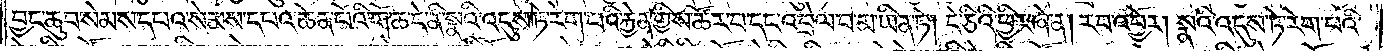བྱང་ཆུབ་སེམས་དཔའ་སེམས་དཔའ་ཆེན་པོའི་གོ་ཆ་དེ་ནི་སྣའི་འདུས་ཏེ་རེག་པའི་རྐྱེན་གྱིས་ཚོར་བ་དང་འབྲེལ་པ་མ་ཡིན་ཏེ། དེ་ཅིའི་ཕྱིར་ཞེ་ན། རབ་འབྱོར། སྣའི་འདུས་ཏེ་རེག་པའི་
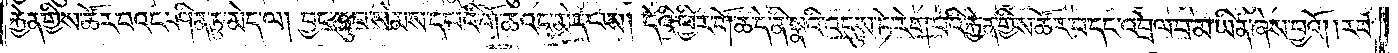རྐྱེན་གྱིས་ཚོར་བའང་ཤིན་ཏུ་མེད་ལ། བྱང་ཆུབ་སེམས་དཔའི་གོ་ཆའང་མེད་པས། དེའི་ཕྱིར་གོ་ཆ་དེ་ནི་སྣའི་འདུས་ཏེ་རེག་པའི་རྐྱེན་གྱིས་ཚོར་བ་དང་འབྲེལ་པ་མ་ཡིན་ཞེས་བྱའོ། །རབ་
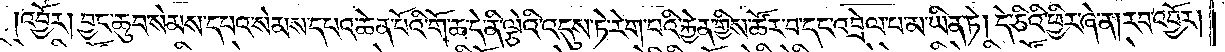འབྱོར། བྱང་ཆུབ་སེམས་དཔའ་སེམས་དཔའ་ཆེན་པོའི་གོ་ཆ་དེ་ནི་ལྕེའི་འདུས་ཏེ་རེག་པའི་རྐྱེན་གྱིས་ཚོར་བ་དང་འབྲེལ་པ་མ་ཡིན་ཏེ། དེ་ཅིའི་ཕྱིར་ཞེ་ན། རབ་འབྱོར།
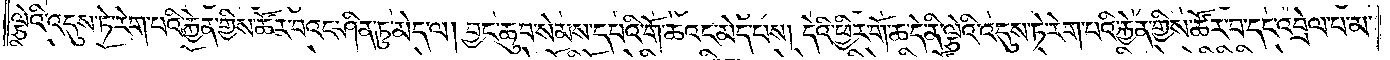ལྕེའི་འདུས་ཏེ་རེག་པའི་རྐྱེན་གྱིས་ཚོར་བའང་ཤིན་ཏུ་མེད་ལ། བྱང་ཆུབ་སེམས་དཔའི་གོ་ཆའང་མེད་པས། དེའི་ཕྱིར་གོ་ཆ་དེ་ནི་ལྕེའི་འདུས་ཏེ་རེག་པའི་རྐྱེན་གྱིས་ཚོར་བ་དང་འབྲེལ་པ་མ་
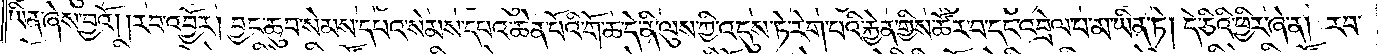ཡིན་ཞེས་བྱའོ། །རབ་འབྱོར། བྱང་ཆུབ་སེམས་དཔའ་སེམས་དཔའ་ཆེན་པོའི་གོ་ཆ་དེ་ནི་ལུས་ཀྱི་འདུས་ཏེ་རེག་པའི་རྐྱེན་གྱིས་ཚོར་བ་དང་འབྲེལ་པ་མ་ཡིན་ཏེ། དེ་ཅིའི་ཕྱིར་ཞེ་ན། རབ་
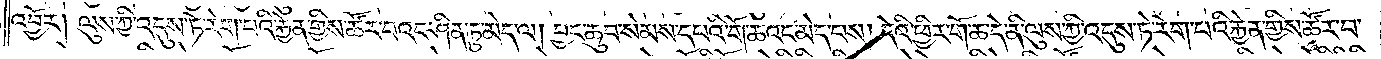འབྱོར། ལུས་ཀྱི་འདུས་ཏེ་རེག་པའི་རྐྱེན་གྱིས་ཚོར་བའང་ཤིན་ཏུ་མེད་ལ། བྱང་ཆུབ་སེམས་དཔའི་གོ་ཆའང་མེད་པས། དེའི་ཕྱིར་གོ་ཆ་དེ་ནི་ལུས་ཀྱི་འདུས་ཏེ་རེག་པའི་རྐྱེན་གྱིས་ཚོར་བ་
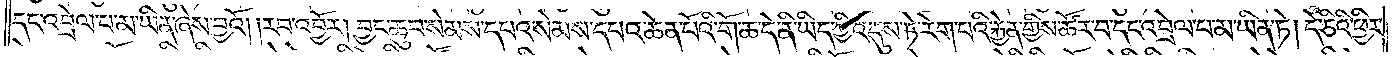དང་འབྲེལ་པ་མ་ཡིན་ཞེས་བྱའོ། །རབ་འབྱོར། བྱང་ཆུབ་སེམས་དཔའ་སེམས་དཔའ་ཆེན་པོའི་གོ་ཆ་དེ་ནི་ཡིད་ཀྱི་འདུས་ཏེ་རེག་པའི་རྐྱེན་གྱིས་ཚོར་བ་དང་འབྲེལ་པ་མ་ཡིན་ཏེ། དེ་ཅིའི་ཕྱིར་
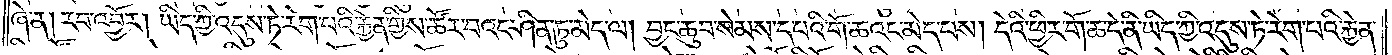ཞེ་ན། རབ་འབྱོར། ཡིད་ཀྱི་འདུས་ཏེ་རེག་པའི་རྐྱེན་གྱིས་ཚོར་བའང་ཤིན་ཏུ་མེད་ལ། བྱང་ཆུབ་སེམས་དཔའི་གོ་ཆའང་མེད་པས། དེའི་ཕྱིར་གོ་ཆ་དེ་ནི་ཡིད་ཀྱི་འདུས་ཏེ་རེག་པའི་རྐྱེན་
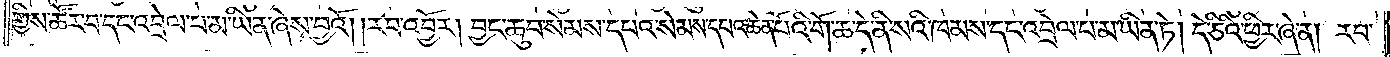གྱིས་ཚོར་བ་དང་འབྲེལ་པ་མ་ཡིན་ཞེས་བྱའོ། །རབ་འབྱོར། བྱང་ཆུབ་སེམས་དཔའ་སེམས་དཔའ་ཆེན་པོའི་གོ་ཆ་དེ་ནི་སའི་ཁམས་དང་འབྲེལ་པ་མ་ཡིན་ཏེ། དེ་ཅིའི་ཕྱིར་ཞེ་ན། རབ་
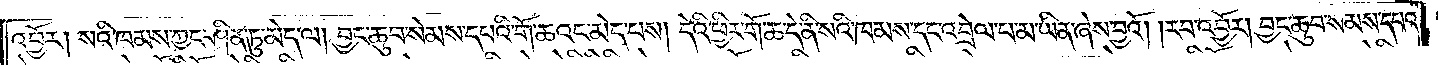འབྱོར། སའི་ཁམས་ཀྱང་ཤིན་ཏུ་མེད་ལ། བྱང་ཆུབ་སེམས་དཔའི་གོ་ཆའང་མེད་པས། དེའི་ཕྱིར་གོ་ཆ་དེ་ནི་སའི་ཁམས་དང་འབྲེལ་པ་མ་ཡིན་ཞེས་བྱའོ། །རབ་འབྱོར། བྱང་ཆུབ་སེམས་དཔའ་
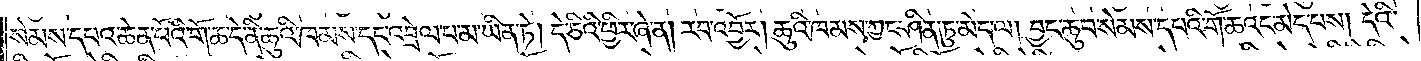སེམས་དཔའ་ཆེན་པོའི་གོ་ཆ་དེ་ནི་ཆུའི་ཁམས་དང་འབྲེལ་པ་མ་ཡིན་ཏེ། དེ་ཅིའི་ཕྱིར་ཞེ་ན། རབ་འབྱོར། ཆུའི་ཁམས་ཀྱང་ཤིན་ཏུ་མེད་ལ། བྱང་ཆུབ་སེམས་དཔའི་གོ་ཆའང་མེད་པས། དེའི་
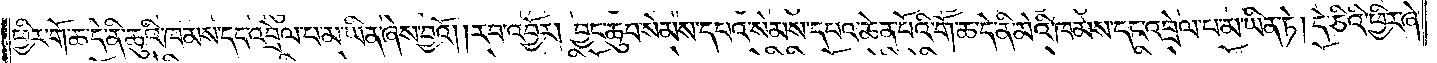ཕྱིར་གོ་ཆ་དེ་ནི་ཆུའི་ཁམས་དང་འབྲེལ་པ་མ་ཡིན་ཞེས་བྱའོ། །རབ་འབྱོར། བྱང་ཆུབ་སེམས་དཔའ་སེམས་དཔའ་ཆེན་པོའི་གོ་ཆ་དེ་ནི་མེའི་ཁམས་དང་འབྲེལ་པ་མ་ཡིན་ཏེ། དེ་ཅིའི་ཕྱིར་ཞེ་
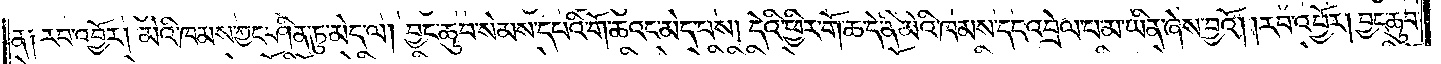ན། རབ་འབྱོར། མེའི་ཁམས་ཀྱང་ཤིན་ཏུ་མེད་ལ། བྱང་ཆུབ་སེམས་དཔའི་གོ་ཆའང་མེད་པས། དེའི་ཕྱིར་གོ་ཆ་དེ་ནི་མེའི་ཁམས་དང་འབྲེལ་པ་མ་ཡིན་ཞེས་བྱའོ། །རབ་འབྱོར། བྱང་ཆུབ་
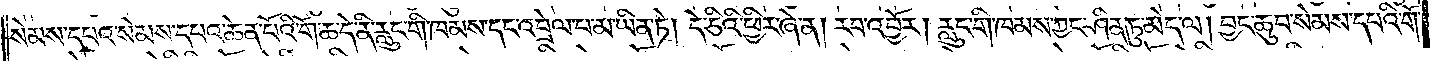སེམས་དཔའ་སེམས་དཔའ་ཆེན་པོའི་གོ་ཆ་དེ་ནི་རླུང་གི་ཁམས་དང་འབྲེལ་པ་མ་ཡིན་ཏེ། དེ་ཅིའི་ཕྱིར་ཞེ་ན། རབ་འབྱོར། རླུང་གི་ཁམས་ཀྱང་ཤིན་ཏུ་མེད་ལ། བྱང་ཆུབ་སེམས་དཔའི་གོ་
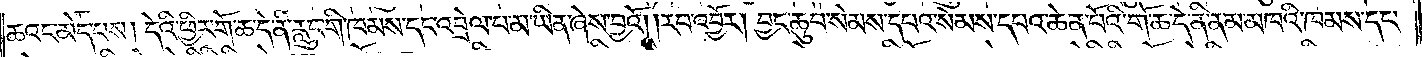ཆའང་མེད་པས། དེའི་ཕྱིར་གོ་ཆ་དེ་ནི་རླུང་གི་ཁམས་དང་འབྲེལ་པ་མ་ཡིན་ཞེས་བྱའོ། །རབ་འབྱོར། བྱང་ཆུབ་སེམས་དཔའ་སེམས་དཔའ་ཆེན་པོའི་གོ་ཆ་དེ་ནི་ནམ་མཁའི་ཁམས་དང་
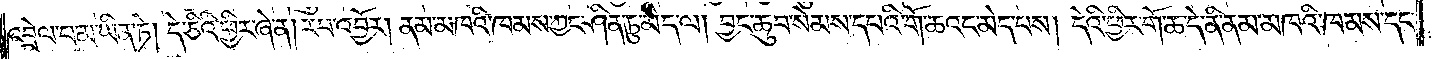འབྲེལ་པ་མ་ཡིན་ཏེ། དེ་ཅིའི་ཕྱིར་ཞེ་ན། རབ་འབྱོར། ནམ་མཁའི་ཁམས་ཀྱང་ཤིན་ཏུ་མེད་ལ། བྱང་ཆུབ་སེམས་དཔའི་གོ་ཆའང་མེད་པས། དེའི་ཕྱིར་གོ་ཆ་དེ་ནི་ནམ་མཁའི་ཁམས་དང་
